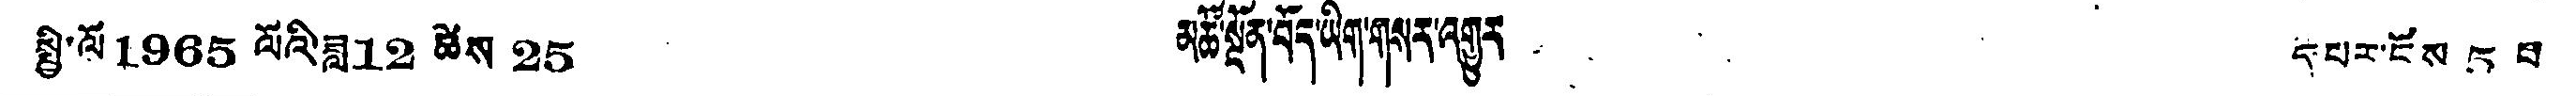སྤྱི་ལོ 1965 ལོའི་ཟླ 12 ཚེས 25 མཚོ་སྔོན་བོད་ཡིག་གསར་འགྱུར དཔར་ངོས 5 བ
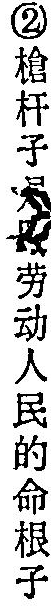②槍杆子是我劳动人民的命根子
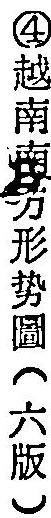④越南南方形势圖（六版）
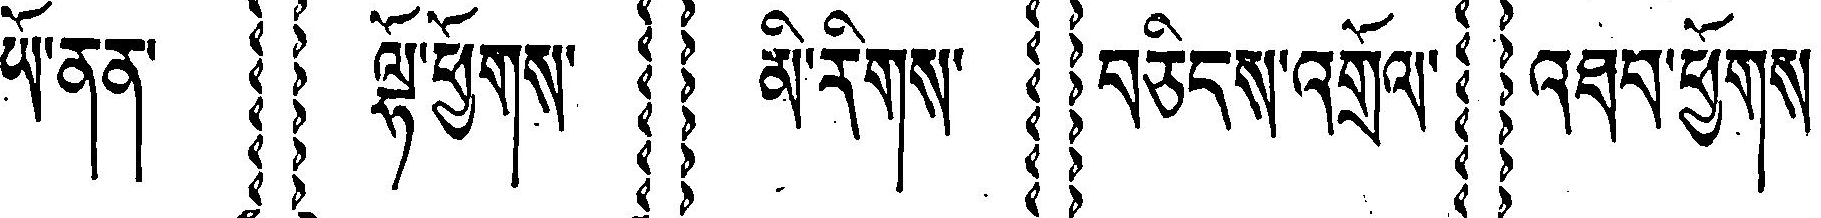ཡོ་ནན་ ལྷོ་ཕྱོགས་ མི་རིགས་ བཅིངས་འགྲོལ་ འཐབ་ཕྱོགས
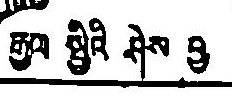རྒྱལ སྤྱིའི ཤེས བྱ
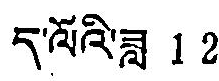ད་ལོའི་ཟླ 12
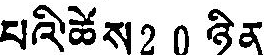པའི་ཚེས 20 ཉིན
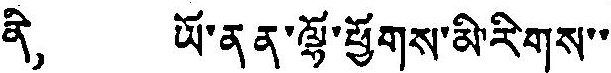ནི， ཡོ་ནན་ལྷོ་ཕྱོགས་མི་རིགས་་
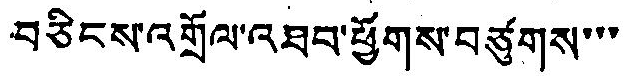བཅིངས་འགྲོལ་འཐབ་ཕྱོགས་བཙུགས་་་
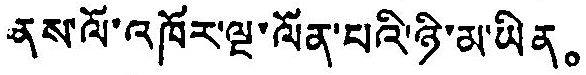ནས་ལོ་འཁོར་ལྔ་ལོན་པའི་ཉི་མ་ཡིན。
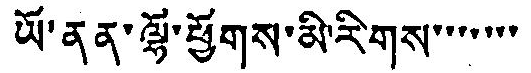ཡོ་ནན་ལྷོ་ཕྱོགས་མི་རིགས་་་་་་་
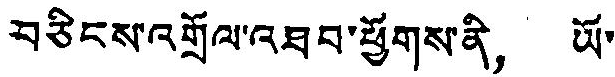བཅིངས་འགྲོལ་འཐབ་ཕྱོགས་ནི， ཡོ་
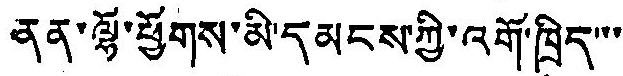ནན་ལྷོ་ཕྱོགས་མི་དམངས་ཀྱི་འགོ་ཁྲིད་་་
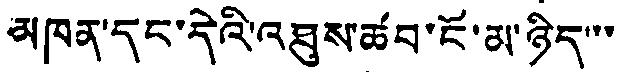མཁན་དང་དེའི་འཐུས་ཚབ་ངོ་མ་ཉིད་་་
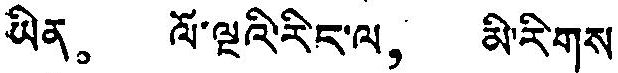ཡིན。 ལོ་ལྔའི་རིང་ལ， མི་རིགས་
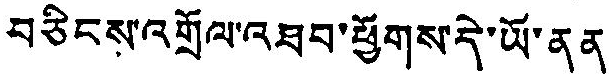བཅིངས་འགྲོལ་འཐབ་ཕྱོགས་དེ་ཡོ་ནན
